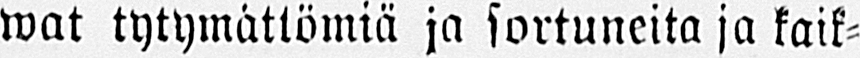wat tytymättömiä ja sortuneita ja kaik-
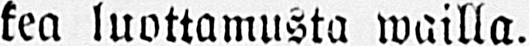kea luottamusta wailla.
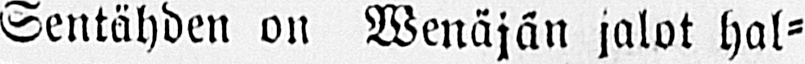Sentähden on Wenäjän jalot hal-
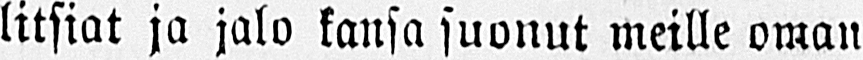litsiat ja jalo kansa suonut meille oman
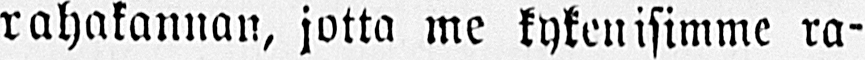rahakannan, jotta me kykenisimme ra-
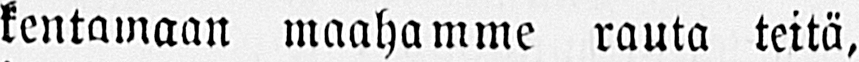kentamaan maahamme rauta teitä,
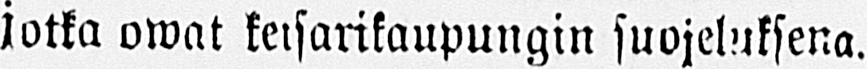jotka owat keisarikaupungin suojeluksena.
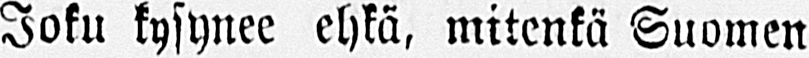Joku kysynee ehkä, mitenkä Suomen
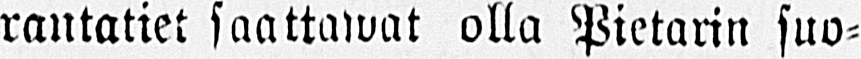rantatiet saattawat olla Pietarin suo-
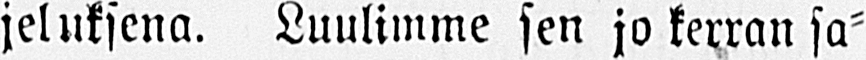jeluksena. Luulimme sen jo kerran sa-
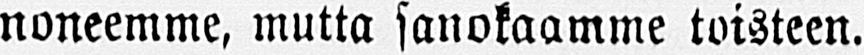noneemme, mutta sanokaamme toisteen.
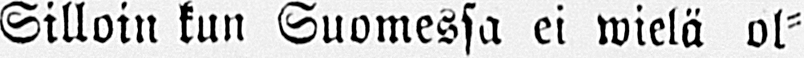Silloin kun Suomessa ei wielä ol-
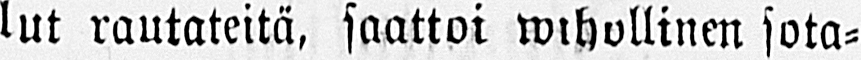lut rautateitä, saattoi wihollinen sota-
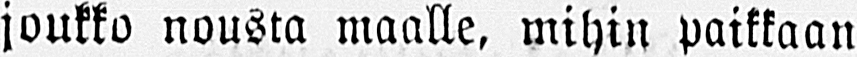joukko nousta maalle, mihin paikkaan
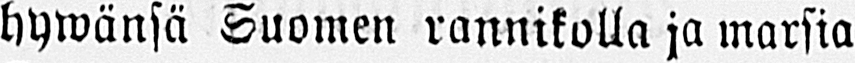hywänsä Suomen rannikolla ja marsia
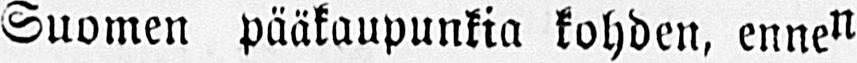Suomen pääkaupunkia kohden, ennen
